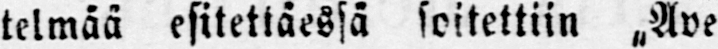telmää esitettäessä soitettiin „Ave
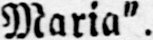Maria".
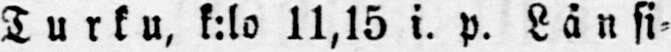Turku, k:lo 11,15 i. p. Länsi-
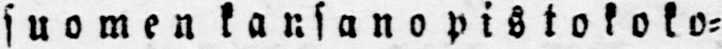suomen kansana pistoko-
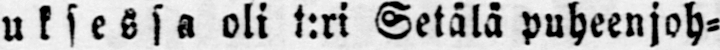uksessa oli t:ri Setälä puheenjoh-
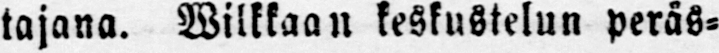tajana. Wilkkaan keskustelun peräs-
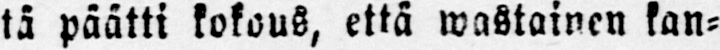tä päätti kokous, että wastainen kan-
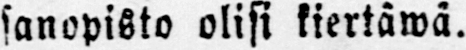sanopisto olisi kiertäwä.
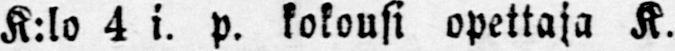K:lo 4 i. p. kokousi opettaja K.
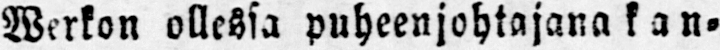Werkon ollessa puheenjohtajana kan-
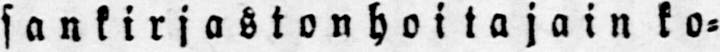sankirjastonhoitajain ko-
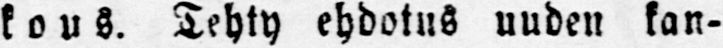kous. Tehty ehdotus uuden kan-
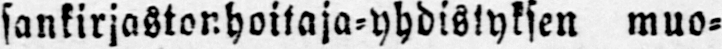sankirjastonhoitaja-yhdistyksen muo-
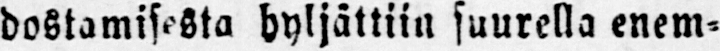dostamisesta hyljättiin suurella enem-
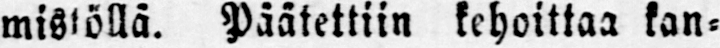mistöllä. Päätettiin kehoittaa kan-
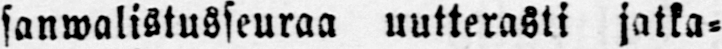sanwalistusseuraa uutterasti jatka-
